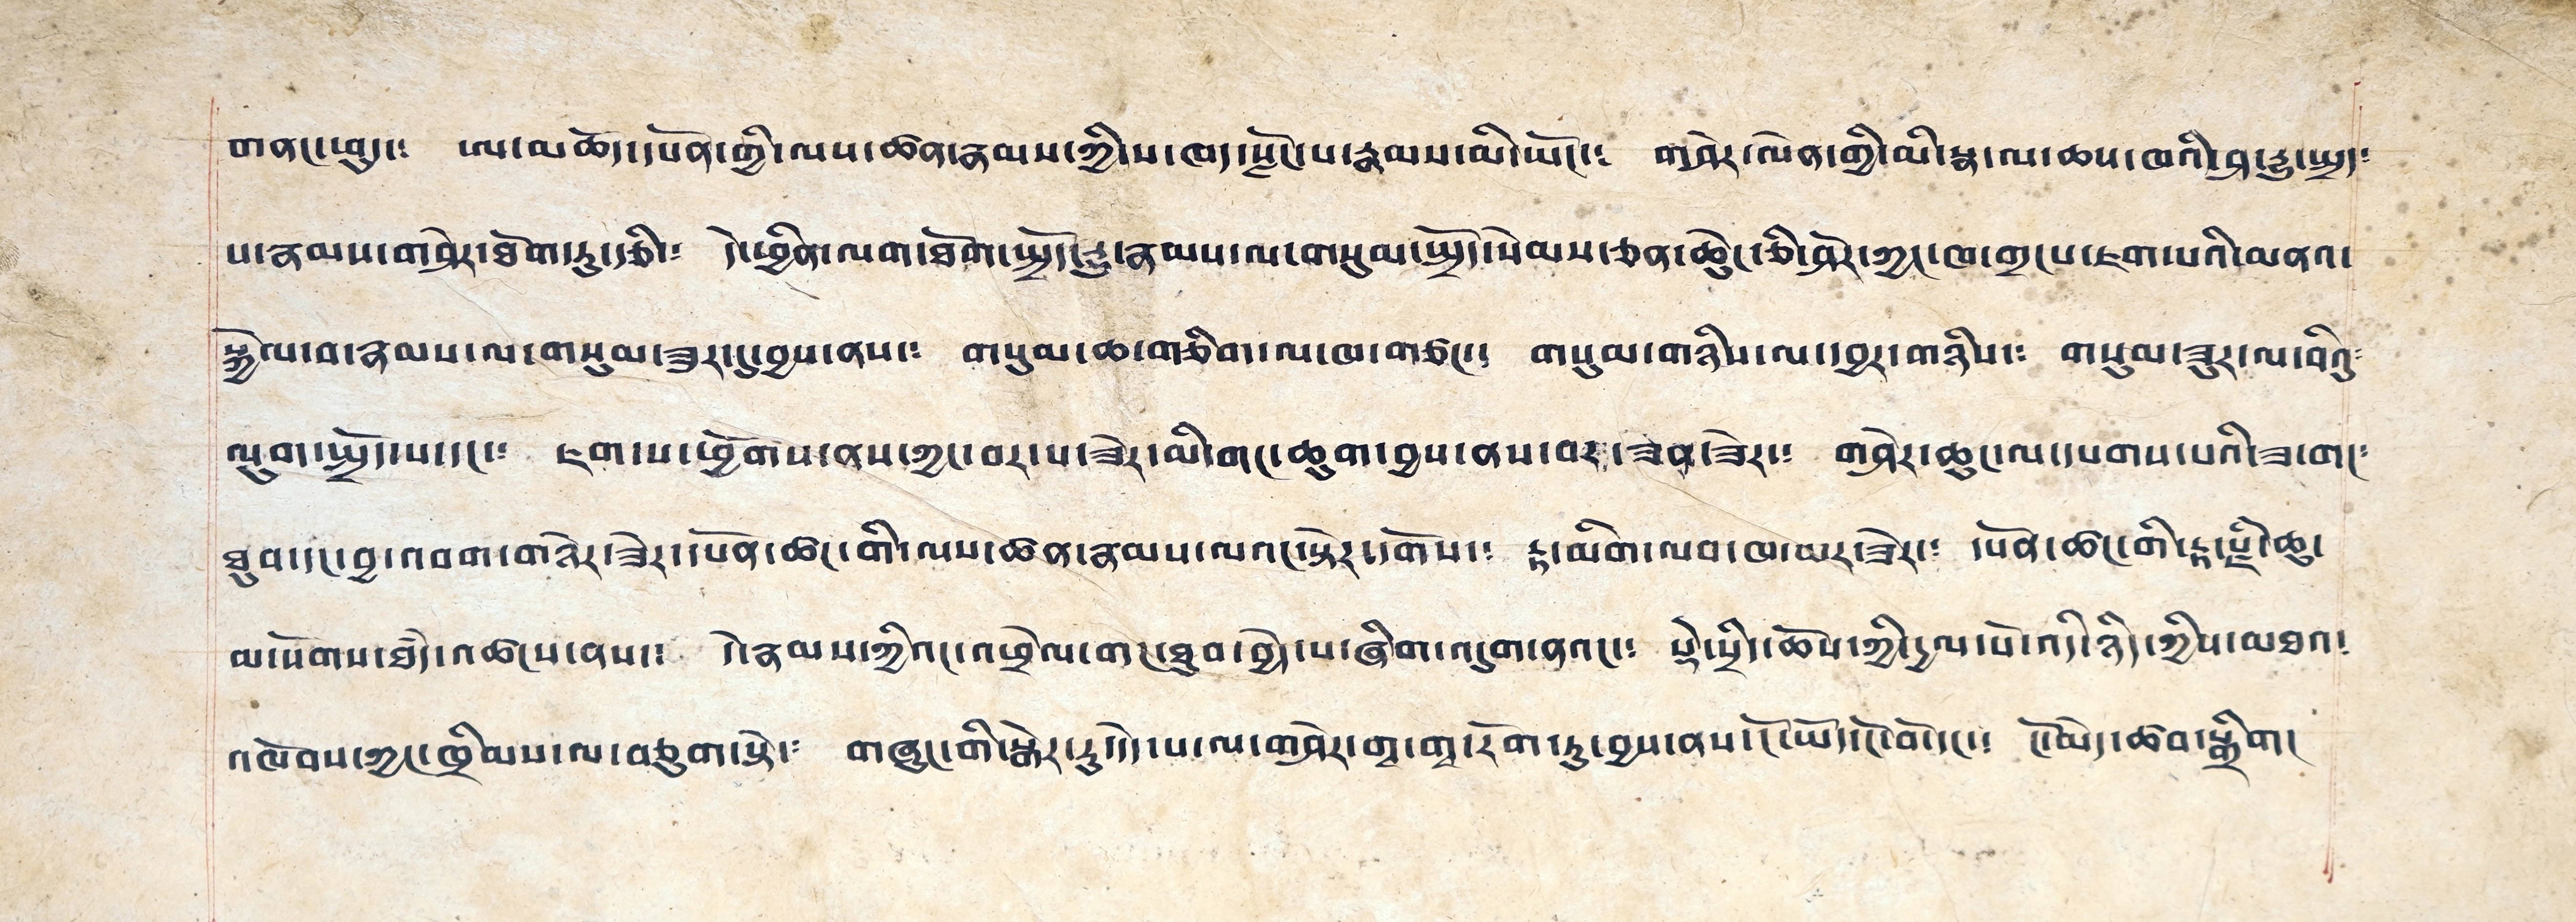གནང་ཕུད་༴ ཨ་མཆོད་དཔོན་གྱི་ལས་ཚན་རྣམས་ཀྱི་ས་ཁད་སློང་པ་རྣམས་མི་ཡོང་༴ གཤེར་ལེན་གྱི་མི་སྣ་ལ་ཆས་ཁའི་ཤ་དྱུ་སྤྲད༴
པ་རྣམས་གཤེར་ཐོག་ཏུ་རྩི་༴ དེ་ཕྱིན་ལག་ཐོག་སྤྲོད་དྱུ་རྣམས་ལ་གསུམ་སྤྲོད་སེམས་ཅན་ཆེུང་ཅི་ཤེར་ཀྱང་ཁ་གྲངས་ཇག་པའི་མནའ་
སྐྱེལ་བ་རྣམས་ལ་གསུམ་ཟར་དུ་བྱས་ནས་༴ གསུམ་ཆ་གཅིག་ལ་ཁ་གཙང་༴ གསུམ་གཉིས་ལ་དབྱར་གཉིས་༴ གསུམ་ཟུར་ལ་བིའུ༴
ལུག་སྤྲོད་པ་དང་༴ ཇག་པ་ཕྱོགས་ནས་ཀྱང་བར་པ་ཟེར་མི་གང་ཆུག་བྱས་ནས་བར་ཟན་ཟེར་༴ གཤེར་ཆུང་ལ་དཔགས་པའི་ཟ་གང༴
ཐུབ་དང་བྱ་འབག་གཉེར་ཟེར་དཔོན་ཚང་གི་ལས་ཚན་རྣམས་ལའང་སྟེར་དགོས་༴ རྟ་མིག་ལབ་ཁ་ཡར་ཟེར་༴ དཔོན་ཚང་གི་རྟ་རྫི་ཆུ་
མ་སོགས་ཐཾད་འཚངས་ནས་༴ དེ་རྣམས་ཀྱིའང་འཕྲེལ་གང་ཐུབ་བྱེད་པ་ཞིག་འདུག་ནའང་༴ སྡེ་སྲིད་ཆོས་ཀྱི་དྱལ་པོ་འདི་ཉིད་ཀྱིས་མཐའ༴
འཁོབས་ཀྱང་ཁྲིམས་ལ་བཅུག་སྟེ་༴ གཞུང་གི་སྒེར་རུ་དེད་པ་ལ་གཤེར་གྭ་གྭ་རོག་ཏུ་བྱས་ནས་ངོ་ཡོད་ངོ་བོ་དང་༴ ངོ་མེད་ཚབ་སྒྲིག།
